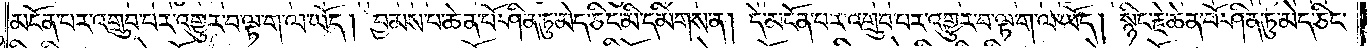མངོན་པར་འགྲུབ་པར་འགྱུར་བ་ལྟ་ག་ལ་ཡོད། བྱམས་པ་ཆེན་པོ་ཤིན་ཏུ་མེད་ཅིང་མི་དམིགས་ན། དེ་མངོན་པར་འགྲུབ་པར་འགྱུར་བ་ལྟ་ག་ལ་ཡོད། སྙིང་རྗེ་ཆེན་པོ་ཤིན་ཏུ་མེད་ཅིང་
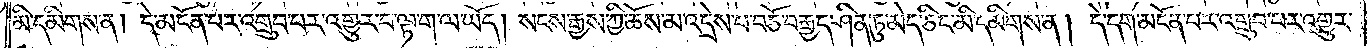མི་དམིགས་ན། དེ་མངོན་པར་འགྲུབ་པར་འགྱུར་བ་ལྟ་ག་ལ་ཡོད། སངས་རྒྱས་ཀྱི་ཆོས་མ་འདྲེས་པ་བཅོ་བརྒྱད་ཤིན་ཏུ་མེད་ཅིང་མི་དམིགས་ན། དེ་དག་མངོན་པར་འགྲུབ་པར་འགྱུར་
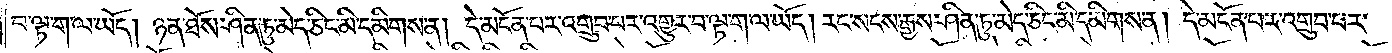བ་ལྟ་ག་ལ་ཡོད། ཉེན་ཐོས་ཤིན་ཏུ་མེད་ཅིང་མི་དམིགས་ན། དེ་མངོན་པར་འགྲུབ་པར་འགྱུར་བ་ལྟ་ག་ལ་ཡོད། རང་སངས་རྒྱས་ཤིན་ཏུ་མེད་ཅིང་མི་དམིགས་ན། དེ་མངོན་པར་འགྲུབ་པར་
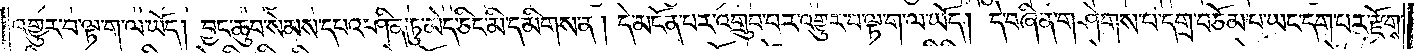འགྱུར་བ་ལྟ་ག་ལ་ཡོད། བྱང་ཆུབ་སེམས་དཔའ་ཤིན་ཏུ་མེད་ཅིང་མི་དམིགས་ན། དེ་མངོན་པར་འགྲུབ་པར་འགྱུར་བ་ལྟ་ག་ལ་ཡོད། དེ་བཞིན་གཤེགས་པ་དགྲ་བཅོམ་པ་ཡང་དག་པར་རྫོགས་
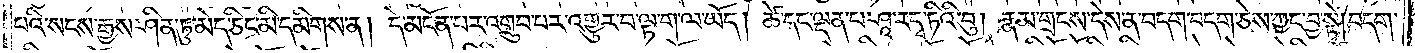པའི་སངས་རྒྱས་ཤིན་ཏུ་མེད་ཅིང་མི་དམིགས་ན། དེ་མངོན་པར་འགྲུབ་པར་འགྱུར་བ་ལྟ་ག་ལ་ཡོད། ཚེ་དང་ལྡན་པ་ཤཱ་ར་དྭ་ཏིའི་བུ། རྣམ་གྲངས་དེས་ན་བདག་བདག་ཅེས་ཀྱང་བྱ་སྟེ། བདག་
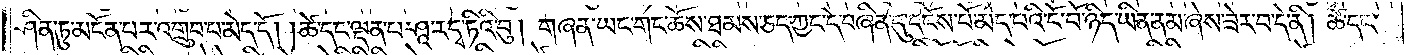ཤིན་ཏུ་མངོན་པར་འགྲུབ་པ་མེད་དོ། །ཚེ་དང་ལྡན་པ་ཤཱ་ར་དྭ་ཏིའི་བུ། གཞན་ཡང་གང་ཆོས་ཐམས་ཅད་ཀྱང་དེ་བཞིན་དུ་དངོས་པོ་མེད་པའི་ངོ་བོ་ཉིད་ཡིན་ནམ་ཞེས་ཟེར་བ་དེ་ནི། ཚེ་དང་
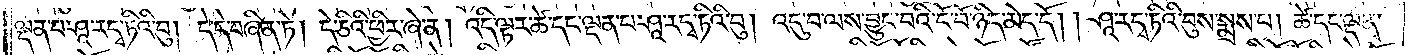ལྡན་པ་ཤཱ་ར་དྭ་ཏིའི་བུ། དེ་དེ་བཞིན་ཏེ། དེ་ཅིའི་ཕྱིར་ཞེ་ན། འདི་ལྟར་ཚེ་དང་ལྡན་པ་ཤཱ་ར་དྭ་ཏིའི་བུ། འདུ་བ་ལས་བྱུང་བའི་ངོ་བོ་ཉིད་མེད་དོ། །ཤཱ་ར་དྭ་ཏིའི་བུས་སྨྲས་པ། ཚེ་དང་ལྡན་
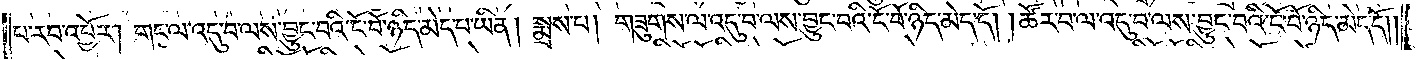པ་རབ་འབྱོར། གང་ལ་འདུ་བ་ལས་བྱུང་བའི་ངོ་བོ་ཉིད་མེད་པ་ཡིན། སྨྲས་པ། གཟུགས་ལ་འདུ་བ་ལས་བྱུང་བའི་ངོ་བོ་ཉིད་མེད་དོ། །ཚོར་བ་ལ་འདུ་བ་ལས་བྱུང་བའི་ངོ་བོ་ཉིད་མེད་དོ། །
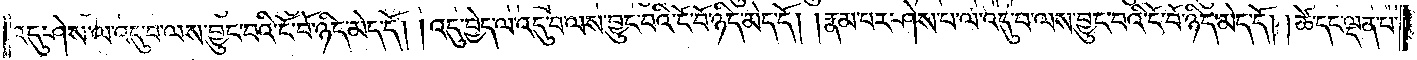འདུ་ཤེས་ལ་འདུ་བ་ལས་བྱུང་བའི་ངོ་བོ་ཉིད་མེད་དོ། །འདུ་བྱེད་ལ་འདུ་བ་ལས་བྱུང་བའི་ངོ་བོ་ཉིད་མེད་དོ། །རྣམ་པར་ཤེས་པ་ལ་འདུ་བ་ལས་བྱུང་བའི་ངོ་བོ་ཉིད་མེད་དོ། །ཚེ་དང་ལྡན་པ་
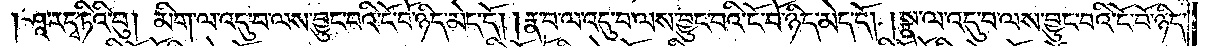ཤཱ་ར་དྭ་ཏིའི་བུ། མིག་ལ་འདུ་བ་ལས་བྱུང་བའི་ངོ་བོ་ཉིད་མེད་དོ། །རྣ་བ་ལ་འདུ་བ་ལས་བྱུང་བའི་ངོ་བོ་ཉིད་མེད་དོ། །སྣ་ལ་འདུ་བ་ལས་བྱུང་བའི་ངོ་བོ་ཉིད་
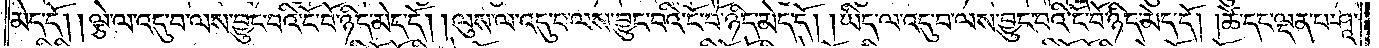མེད་དོ། །ལྕེ་ལ་འདུ་བ་ལས་བྱུང་བའི་ངོ་བོ་ཉིད་མེད་དོ། །ལུས་ལ་འདུ་བ་ལས་བྱུང་བའི་ངོ་བོ་ཉིད་མེད་དོ། །ཡིད་ལ་འདུ་བ་ལས་བྱུང་བའི་ངོ་བོ་ཉིད་མེད་དོ། །ཚེ་དང་ལྡན་པ་ཤཱ་
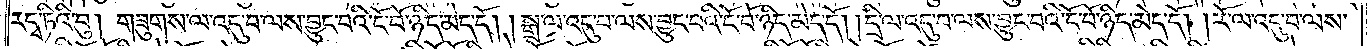ར་དྭ་ཏིའི་བུ། གཟུགས་ལ་འདུ་བ་ལས་བྱུང་བའི་ངོ་བོ་ཉིད་མེད་དོ། །སྒྲ་ལ་འདུ་བ་ལས་བྱུང་བའི་ངོ་བོ་ཉིད་མེད་དོ། །དྲི་ལ་འདུ་བ་ལས་བྱུང་བའི་ངོ་བོ་ཉིད་མེད་དོ། །རོ་ལ་འདུ་བ་ལས་
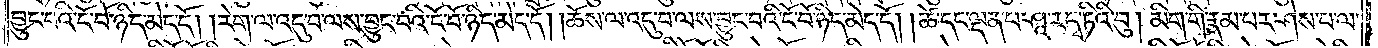བྱུང་བའི་ངོ་བོ་ཉིད་མེད་དོ། །རེག་ལ་འདུ་བ་ལས་བྱུང་བའི་ངོ་བོ་ཉིད་མེད་དོ། །ཆོས་ལ་འདུ་བ་ལས་བྱུང་བའི་ངོ་བོ་ཉིད་མེད་དོ། །ཚེ་དང་ལྡན་པ་ཤཱ་ར་དྭ་ཏིའི་བུ། མིག་གི་རྣམ་པར་ཤེས་པ་ལ་
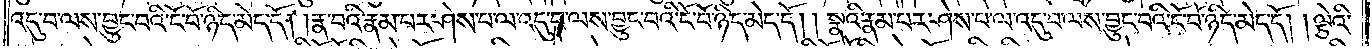འདུ་བ་ལས་བྱུང་བའི་ངོ་བོ་ཉིད་མེད་དོ། །རྣ་བའི་རྣམ་པར་ཤེས་པ་ལ་འདུ་བ་ལས་བྱུང་བའི་ངོ་བོ་ཉིད་མེད་དོ། །སྣའི་རྣམ་པར་ཤེས་པ་ལ་འདུ་བ་ལས་བྱུང་བའི་ངོ་བོ་ཉིད་མེད་དོ། །ལྕེའི་
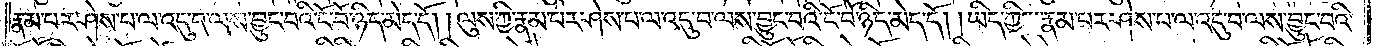རྣམ་པར་ཤེས་པ་ལ་འདུ་བ་ལས་བྱུང་བའི་ངོ་བོ་ཉིད་མེད་དོ། །ལུས་ཀྱི་རྣམ་པར་ཤེས་པ་ལ་འདུ་བ་ལས་བྱུང་བའི་ངོ་བོ་ཉིད་མེད་དོ། །ཡིད་ཀྱི་རྣམ་པར་ཤེས་པ་ལ་འདུ་བ་ལས་བྱུང་བའི་
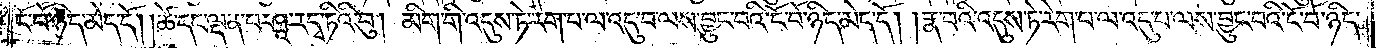ངོ་བོ་ཉིད་མེད་དོ། །ཚེ་དང་ལྡན་པ་ཤཱ་ར་དྭ་ཏིའི་བུ། མིག་གི་འདུས་ཏེ་རེག་པ་ལ་འདུ་བ་ལས་བྱུང་བའི་ངོ་བོ་ཉིད་མེད་དོ། །རྣ་བའི་འདུས་ཏེ་རེག་པ་ལ་འདུ་བ་ལས་བྱུང་བའི་ངོ་བོ་ཉིད་
